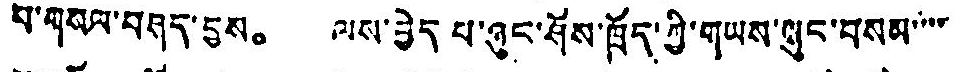པ་གསལ་བཤད་བྱས。 ལས་བྱེད པ་ཞུང་ཤོས་ཁྲོད་ཀྱི་གཡས་ཨུང་བསམ་་་་
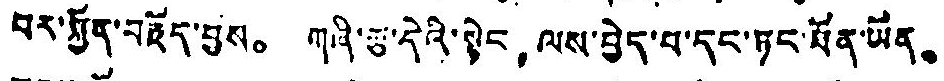བར་སྐྱོད་བརྗོད་བྱས༠ གཞི་རྩ་དེའི་སྟེང， ལས་བྱེད་པ་དང་ཏང་ཐོན་ཡོན。
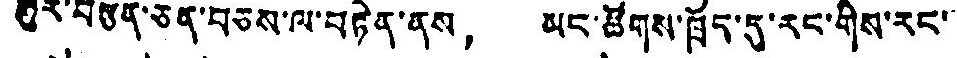ཧུར་བརྩོན་ཅན་བཅས་ལ་བརྟེན་ནས， མང་ཚོགས་ཁྲོད་དུ་རང་གིས་རང་
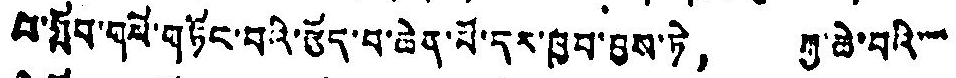པ་སློབ་གསོ་གཏོང་བའི་རྩོད་པ་ཆེན་པོ་དར་ཁྱབ་བྱས་ཏེ， རྒྱ་ཆེ་བའི་་་
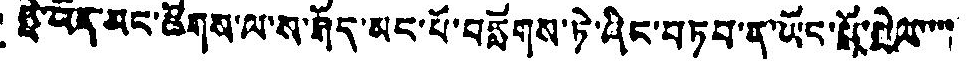ཧྥེ་འོན་མང་ཚོགས་ལ་ས་ཤོད་མང་པོ་བརློགས་ཏེ་ཞིང་བཏབ་ན་ཡོང་པོ་ཁྱེལ་་་་་
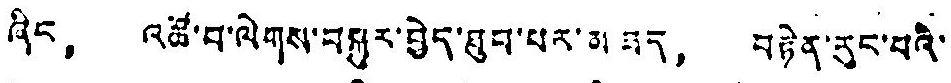ཞིང， འཚོ་བ་ལེགས་བསྐྱུར་བྱེད་ཐུབ་པར་མ ཟད， བརྟེན་རུང་བའི་
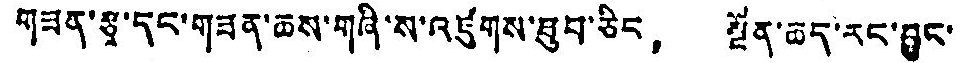གཟན་རྩྭ་དང་གཟན་ཆས་གཞི་ས་འཛུགས་ཐུབ་ཅིང， སྔོན་ཆད་རང་བྱུང་
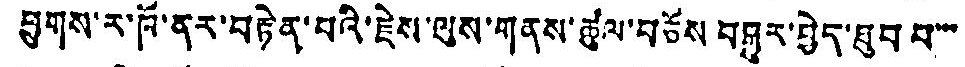ཕྱུགས་ར་ཁོ་ནར་བརྟེན་པའི་རྗེས་ལུས་གནས་ཚུལ་བཅོས བསྒྱུར་བྱེད་ཐུབ པ་་་་
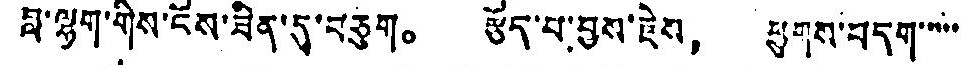བླ་ལྷག་གིས་ངོས་ཟིན་དུ་བཅུག。 རྩོད་པ་བྱས་རྗེས， ཕྱུགས་བདག་་་་་
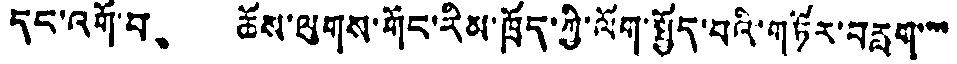དང་འགོ་བ、 ཆོས་ལུགས་གོང་རིམ་ཁྲོད་ཀྱི་ལོག་སྤྱོད་པའི་གཏོར་བརླག་་་་
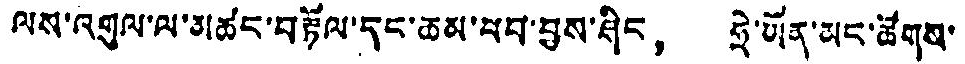ལས་འགུལ་ལ་མཚང་བརྟོལ་དང་ཆམ་ཕབ་བྱས་ཤིང， ཧྲེ་ཡོན་མང་ཚོགས་
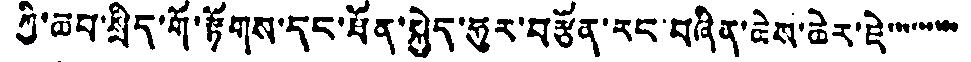ཀྱི་ཆབ་སྲིད་གོ་རྟོགས་དང་ཐོན་སྐྱེད་ཧུར་བརྩོན་རང་བཞིན་ཆེས་ཆེར་ཇེ་་་་་་་་་་
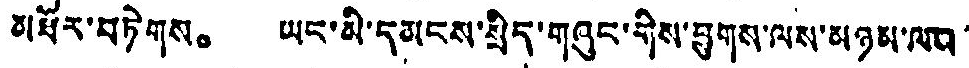མཐོར་བཏེགས。 ཡང་མི་དམངས་སྲིད་གཞུང་གིས་ཕྱུགས་ལས་མཉམ་ལས་
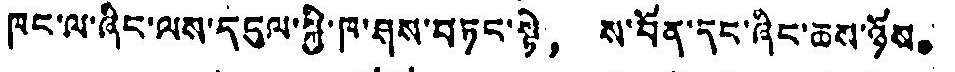ཁང་ལ་ཞིང་ལས་དངུལ་སྐྱི་ཁ་ཤས་བཏང་སྟེ， ས་བོན་དང་ཞིང་ཆས་ཉོས。
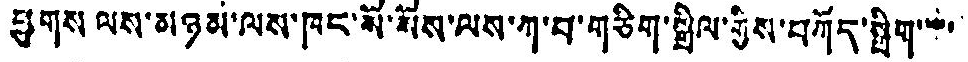ཕྱུགས ལས་མཉམ་ལས་ཁང་སོ་སོས་ལས་ཀ་བ་གཅིག་སྒྲིལ་གྱིས་བཀོད་སྒྲིག་་་་་
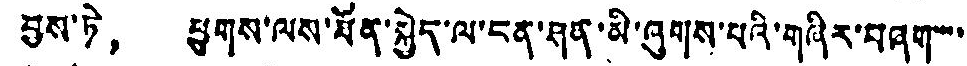བྱས་ཏེ， ཕྱུགས་ལས་ཐོན་སྐྱེད་ལ་ངན་ཤན་མི་ཞུགས་པའི་གཞིར་བཞག་་་་
